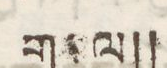གསལ།།
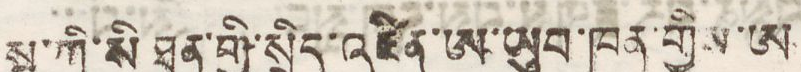སྤ་ཀི་སི་ཐན་གྱི་སྲིད་འཛིན་ཨ་ཡུབ་ཁན་གྱིས་ཨ
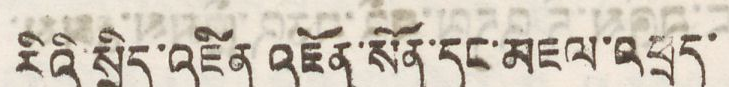རིའི་སྲིད་འཛིན འཇོན་སོན་དང་འཇལ་འཕྲད་
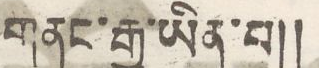གནང་རྒྱུ་ཡིན་བ༎
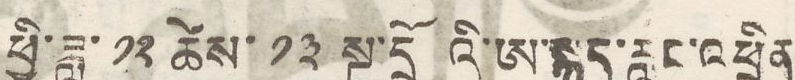ཕྱི་ཟླ་ ༡༢ ཚེས་ ༡༣ སྔ་དྲོའི་ཨ་སྐད་རླུང་འཕྲིན
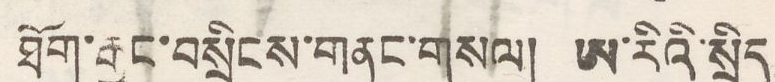ཐོག་རྒྱང་བསྲིངས་གནང་གསལ། ཨ་རིའི་སྲིད
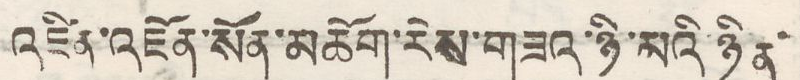འཛིན་འཇོན་སོན་མཆོག་རེས་གཟའ་ཉི་མའི་ཉིན་
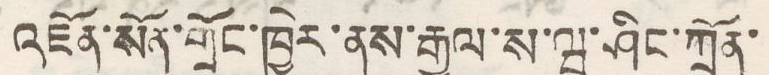འཇོན་སོན་གྲོང་ཁྱེར་ནས་རྒྱལ་ས་ཝ་ཤིང་ཀྲོན་
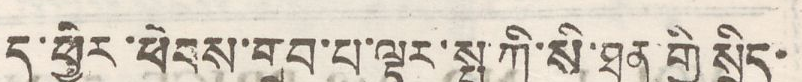དུ་ཕྱིར་ཕེབས་གྲུབ་པ་ལྟར་སྤ་ཀི་སི་ཐན་གྱི སྲིད་
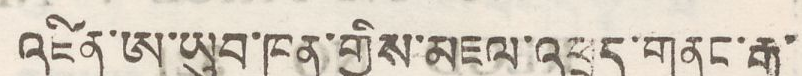འཛིན་ཨ་ཡུབ་ཁན་གྱིས་མཇལ་འཕྲད་གནང་རྒྱུ་
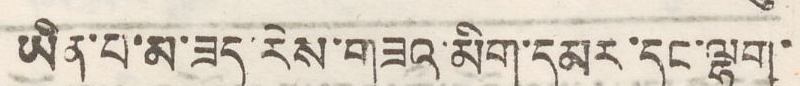ཡིན་པ་མ་ཟད་རེས་གཟའ་མིག་དམར་དང་ལྷག་
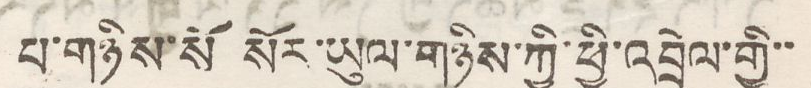པ་གཉིས་སོ སོར་ཡུལ་གཉིས་ཀྱི་ཕྱི་འབྲེལ་གྱི་་
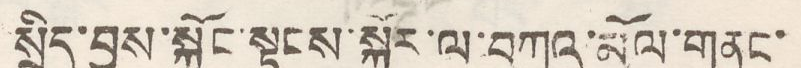སྲིད་བྱུས་སྐྱོང་སྟངས་སྐོར་ལ་བཀའ་མོལ་གནང་
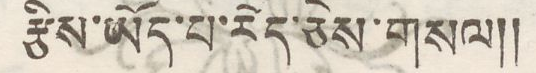རྩིས་ཡོད་པ་རེད་ཅེས་གསལ།།
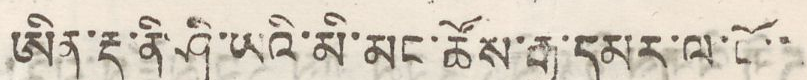ཨིན་རྡུ་ནི་ཤི་ཡའི་མི་མང་ཚོས་རྒྱ་དམར་ལ་ངོ་་
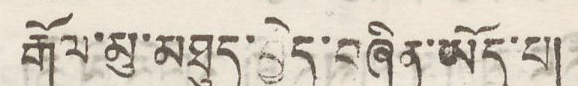རྒོལ་མུ་མཐུད་བྱེད་བཞིན་ཡོད་པ།
